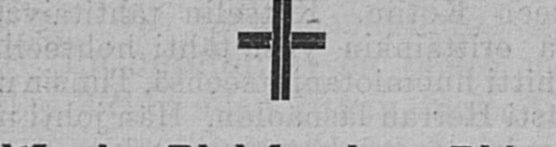†
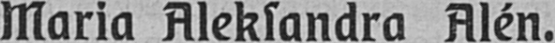Maria Aleksandra Alén.
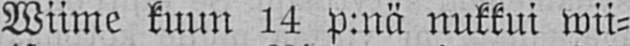Wiime kuun 14 p:nä nukkui wii-
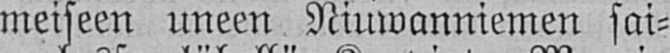meiseen uneen Niuwanniemen sai-
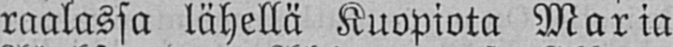raalassa lähellä Kuopiota Maria
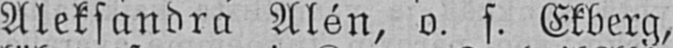Aleksandra Alén, o. s. Ekberg,
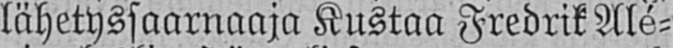lähetyssaarnaaja Kustaa Fredrik Alé-
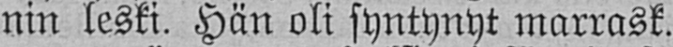nin leski. Hän oli syntynyt marrask.
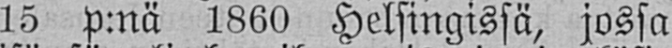15 p:nä 1860 Helsingissä, jossa
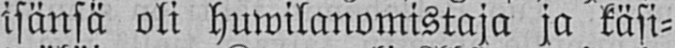isänsä oli huwilanomistaja ja käsi-
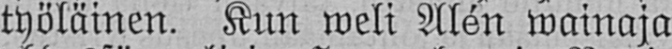työläinen. Kun weli Alén wainaja
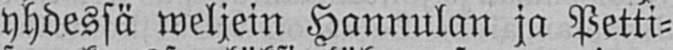yhdessä weljein Hannulan ja Petti-
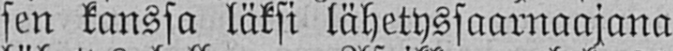sen kanssa läksi lähetyssaarnaajana
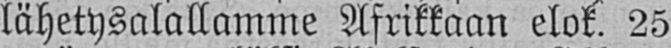lähetysalallamme Afrikkaan elok. 25
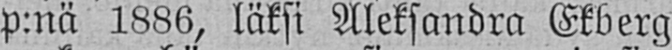p:nä 1886, läksi Aleksandra Ekberg
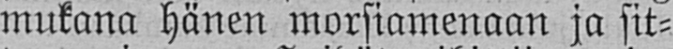mukana hänen morsiamenaan ja sit-
